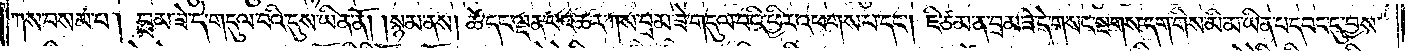ཀས་བསམ་པ། བྲམ་ཟེ་དེ་གདུལ་བའི་དུས་ཡིན་ནོ། །སྙམ་ནས། ཚེ་དང་ལྡན་པ་འཆར་ཀས་བྲམ་ཟེ་གདུལ་བའི་ཕྱིར་འཕགས་པ་དང༌། ཇི་ཙམ་ན་བྲམ་ཟེ་དེ་གསང་སྔགས་དག་གིས་མི་མ་ཡིན་པ་དབང་དུ་བྱས་
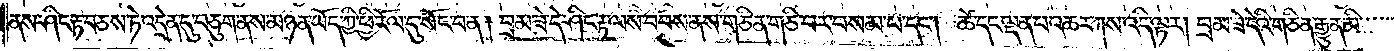ནས་ཤིང་རྟ་བཅས་ཏེ་འདྲེན་དུ་བཅུག་ནས་མཉན་ཡོད་ཀྱི་ཕྱི་རོལ་དུ་སོང་བ་ན། བྲམ་ཟེ་དེ་ཤིང་རྟ་ལས་བབས་ནས་གཅིན་གཅི་བར་བསམ་པ་དང༌། ཚེ་དང་ལྡན་པ་འཆར་ཀས་འདི་ལྟར། བྲམ་ཟེ་དེའི་གཅིན་རྒྱུན་མི་
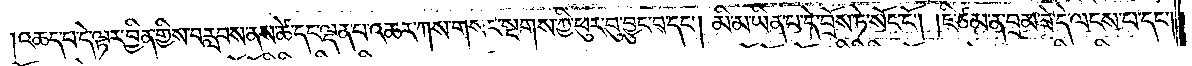འཆད་པ་དེ་ལྟར་བྱིན་གྱིས་བརླབས་ནས་ཚེ་དང་ལྡན་པ་འཆར་ཀས་གསང་སྔགས་ཀྱི་ཕུར་བུ་བྱུང་བ་དང༌། མི་མ་ཡིན་པ་དེ་བྲོས་ཏེ་སོང་ངོ༌། །ཇི་ཙམ་ན་བྲམ་ཟེ་དེ་ལངས་པ་དང༌།
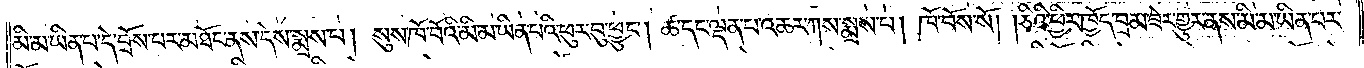མི་མ་ཡིན་པ་དེ་བྲོས་པར་མཐོང་ནས་དེས་སྨྲས་པ། སུས་ཁོ་བོའི་མི་མ་ཡིན་པའི་ཕུར་བུ་ཕྱུང༌། ཚེ་དང་ལྡན་པ་འཆར་ཀས་སྨྲས་པ། ཁོ་བོས་སོ། །ཅིའི་ཕྱིར་ཁྱོད་བྲམ་ཟེར་གྱུར་ནས་མི་མ་ཡིན་པར་
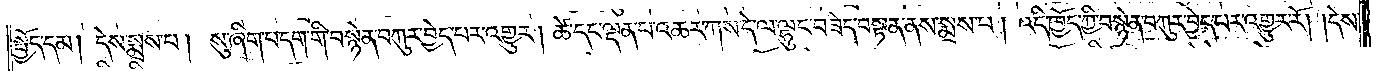སྤྱོད་དམ། དེས་སྨྲས་པ། སུ་ཞིག་བདག་གི་བསྙེན་བཀུར་བྱེད་པར་འགྱུར། ཚེ་དང་ལྡན་པ་འཆར་ཀས་དེ་ལ་ལྷུང་བཟེད་བསྟན་ནས་སྨྲས་པ། འདི་ཁྱོད་ཀྱི་བསྙེན་བཀུར་བྱེད་པར་འགྱུར་རོ། །དེས་
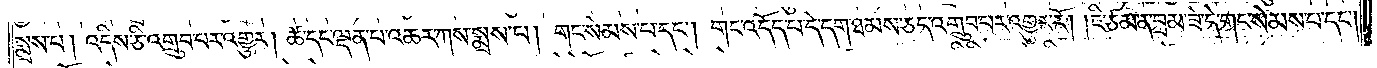སྨྲས་པ། འདིས་ཅི་འགྲུབ་པར་འགྱུར། ཚེ་དང་ལྡན་པ་འཆར་ཀས་སྨྲས་པ། གང་སེམས་པ་དང༌། གང་འདོད་པ་དེ་དག་ཐམས་ཅད་འགྲུབ་པར་འགྱུར་རོ། །ཇི་ཙམ་ན་བྲམ་ཟེ་དེ་གང་སེམས་པ་དང༌།
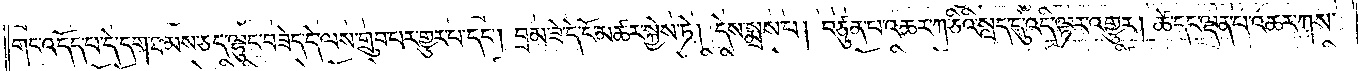གང་འདོད་པ་དེ་དག་ཐམས་ཅད་ལྷུང་བཟེད་དེ་ལས་གྲུབ་པར་གྱུར་པ་དང༌། བྲམ་ཟེ་དེ་ངོ་མཚར་སྐྱེས་ཏེ། དེས་སྨྲས་པ། བཙུན་པ་འཆར་ཀ་ཅིའི་སླད་དུ་འདི་ལྟར་འགྱུར། ཚེ་དང་ལྡན་པ་འཆར་ཀས་
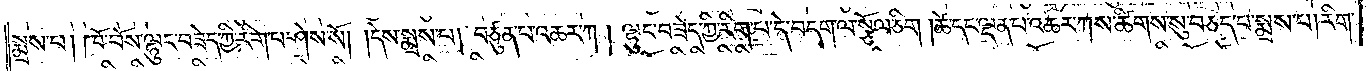སྨྲས་པ། ཁོ་བོས་ལྷུང་བཟེད་ཀྱི་རིག་པ་ཤེས་སོ། །དེས་སྨྲས་པ། བཙུན་པ་འཆར་ཀ། ལྷུང་བཟེད་ཀྱི་རིག་པ་དེ་བདག་ལ་སྩོལ་ཅིག །ཚེ་དང་ལྡན་པ་འཆར་ཀས་ཚིགས་སུ་བཅད་པ་སྨྲས་པ། རིག་
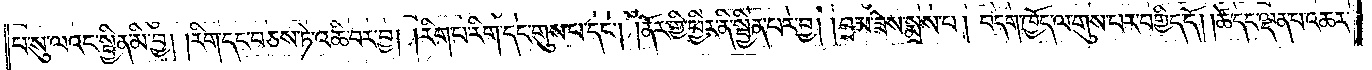པ་སུ་ལའང་སྦྱིན་མི་བྱ། །རིག་དང་བཅས་ཏེ་འཆི་བར་བྱ། །རིག་པ་རིག་དང་གུས་པ་དང༌། །ནོར་གྱི་ཕྱིར་ནི་སྦྱིན་པར་བྱ། །བྲམ་ཟེས་སྨྲས་པ། བདག་ཁྱོད་ལ་གུས་པར་བགྱིད་དོ། །ཚེ་དང་ལྡན་པ་འཆར་
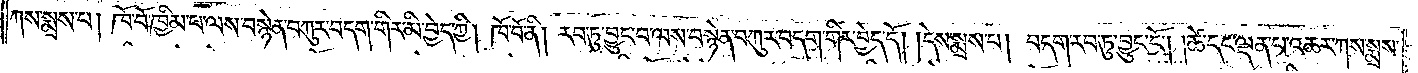ཀས་སྨྲས་པ། ཁོ་བོ་ཁྱིམ་པ་ལས་བསྙེན་བཀུར་བདག་གིར་མི་བྱེད་ཀྱི། ཁོ་བོ་ནི། རབ་ཏུ་བྱུང་བ་ལས་བསྙེན་བཀུར་བདག་གིར་བྱེད་དོ། །དེས་སྨྲས་པ། བདག་རབ་ཏུ་བྱུང་ངོ༌། །ཚེ་དང་ལྡན་པ་འཆར་ཀས་སྨྲས་
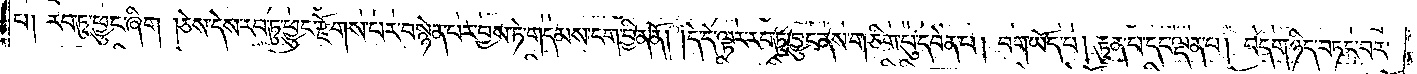པ། རབ་ཏུ་ཕྱུང་ཞིག །ཅེས་དེས་རབ་ཏུ་ཕྱུང་རྫོགས་པར་བསྙེན་པར་བྱས་ཏེ་གདམས་ངག་བྱིན་ནོ། །དེ་དེ་ལྟར་རབ་ཏུ་བྱུང་ནས་གཅིག་པུ་དབེན་པ། བག་ཡོད་པ། རྟུན་པ་དང་ལྡན་པ། བདག་ཉིད་བཏང་བར་
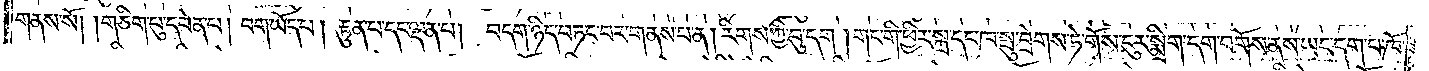གནས་སོ། །གཅིག་པུ་དབེན་པ། བག་ཡོད་པ། རྟུན་པ་དང་ལྡན་པ། བདག་ཉིད་བཏང་བར་གནས་པ་ན། རིགས་ཀྱི་བུ་དག །གང་གི་ཕྱིར་སྐྲ་དང་ཁ་སྤུ་བྲེགས་ཏེ་གོས་ངུར་སྨྲིག་དག་བགོས་ནས་ཡང་དག་པ་ཁོ་
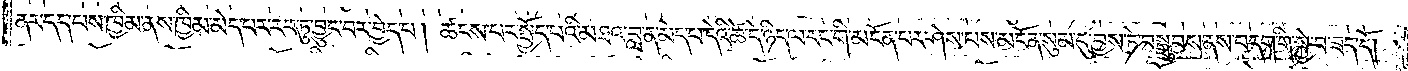ནར་དད་པས་ཁྱིམ་ནས་ཁྱིམ་མེད་པར་རབ་ཏུ་བྱུང་བར་བྱེད་པ། ཚངས་པར་སྤྱོད་པའི་མཐའ་བླ་ན་མེད་པ་དེའི་ཚེ་དེ་ཉིད་ལ་རང་གི་མངོན་པར་ཤེས་པས་མངོན་སུམ་དུ་བྱས་ཏེ་བསྒྲུབས་ནས་བདག་གི་སྐྱེ་བ་ཟད་དོ། །
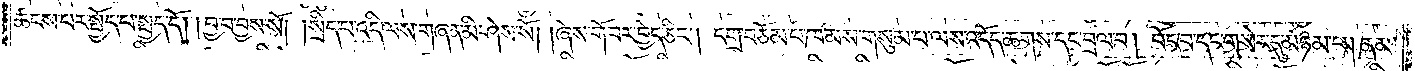ཚངས་པར་སྤྱོད་པ་སྤྱད་དོ། །བྱ་བ་བྱས་སོ། །སྲིད་པ་འདི་ལས་གཞན་མི་ཤེས་སོ། །ཞེས་གོ་བར་བྱེད་ཅིང༌། དགྲ་བཅོམ་པ་ཁམས་གསུམ་པ་ལས་འདོད་ཆགས་དང་བྲལ་བ། བོང་བ་དང་གསེར་དུ་མཉམ་པ། ནམ་
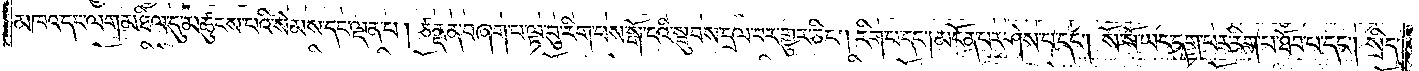མཁའ་དང་ལག་མཐིལ་དུ་མཚུངས་པའི་སེམས་དང་ལྡན་པ། ཙནྡན་བཞག་པ་ལྟ་བུ་རིག་པས་སྒོ་ངའི་སྦུབས་དྲལ་བར་གྱུར་ཅིང༌། རིག་པ་དང༌། མངོན་པར་ཤེས་པ་དང༌། སོ་སོ་ཡང་དག་པར་རིག་པ་ཐོབ་པ་དང༌། སྲིད་
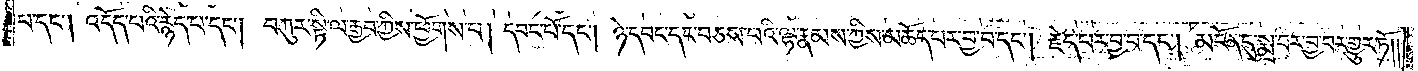པ་དང༌། འདོད་པའི་རྙེད་པ་དང༌། བཀུར་སྟི་ལ་རྒྱབ་ཀྱིས་ཕྱོགས་པ། དབང་པོ་དང༌། ཉེ་དབང་དང་བཅས་པའི་ལྷ་རྣམས་ཀྱིས་མཆོད་པར་བྱ་བ་དང༌། རྗེད་པར་བྱ་བ་དང༌། མངོན་དུ་སྨྲ་བར་བྱ་བར་གྱུར་ཏོ། །
